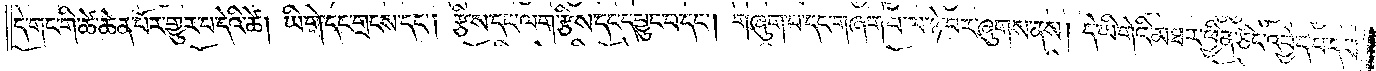དེ་གང་གི་ཚེ་ཆེན་པོར་གྱུར་པ་དེའི་ཚེ། ཡི་གེ་དང་གྲངས་དང༌། རྩིས་དང་ལག་རྩིས་དང་དབྱུང་བ་དང༌། གཞུག་པ་དང་གཞག་པ་ལ་ཉེ་བར་ཞུགས་ནས། དེ་ཡི་གེའི་མཐར་ཕྱིན་ཅིང་འབྱེད་པ་དང༌།
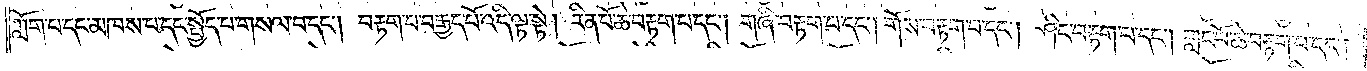ཀློག་པ་དང་མཁས་པ་དང་སྤྱོད་པ་གསལ་བ་དང༌། བརྟག་པ་བརྒྱད་པོ་འདི་ལྟ་སྟེ། རིན་པོ་ཆེ་བརྟག་པ་དང༌། གཞི་བརྟག་པ་དང༌། གོས་བརྟག་པ་དང༌། ཤིང་བརྟག་པ་དང༌། གླང་པོ་ཆེ་བརྟག་པ་དང༌།
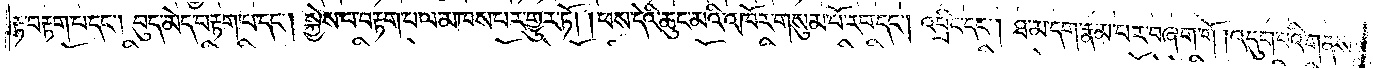རྟ་བརྟག་པ་དང༌། བུད་མེད་བརྟག་པ་དང༌། སྐྱེས་པ་བརྟག་པ་ལ་མཁས་པར་གྱུར་ཏོ། །ཕས་དེའི་ཆུང་མའི་འཁོར་གསུམ་པོ་རབ་དང༌། འབྲིང་དང༌། ཐ་མ་དག་རྣམ་པར་བཞག་གོ །འདུག་པའི་གནས་
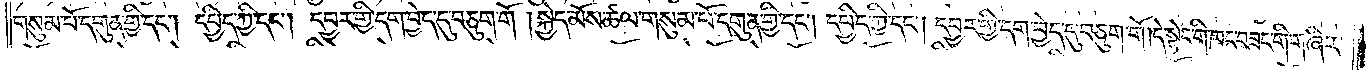གསུམ་པོ་དགུན་གྱི་དང༌། དཔྱིད་ཀྱི་དང༌། དབྱར་གྱི་དག་བྱེད་དུ་བཅུག་གོ །སྐྱེད་མོས་ཚལ་གསུམ་པོ་དགུན་གྱི་དང༌། དཔྱིད་ཀྱི་དང༌། དབྱར་གྱི་དག་བྱེད་དུ་བཅུག་གོ །དེ་སྟེང་གི་ཁང་བཟང་གི་གཞིར་
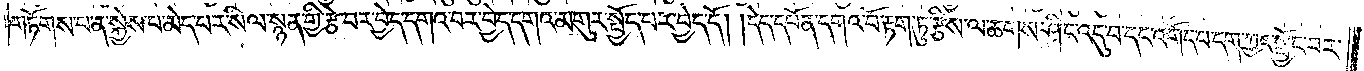གཏོགས་པ་ན་སྐྱེས་པ་མེད་པར་སིལ་སྙན་གྱི་རྩེ་བར་བྱེད་དགའ་བར་བྱེད་དགའ་མགུར་སྤྱོད་པར་བྱེད་དོ། །དེད་དཔོན་དགའ་བོ་རྟག་ཏུ་རྩིས་ལ་ཆགས་ཤིང་འདུ་བ་དང་འགོད་པ་དག་ཀྱང་སྦྱོང་བར་
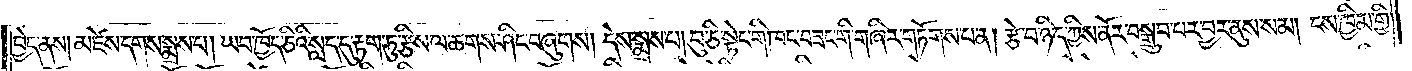བྱེད་ནས། མཛེས་དགས་སྨྲས་པ། ཡབ་ཁྱོད་ཅིའི་སླད་དུ་རྟག་ཏུ་རྩིས་ལ་ཆགས་ཤིང་བཞུགས། དེས་སྨྲས་པ། བུ་ཅི་སྟེང་གི་ཁང་བཟང་གི་གཞིར་གཏོགས་པ་ན། རྩེ་བ་ཉིད་ཀྱིས་ནོར་བསྒྲུབ་པར་བྱར་ནུས་སམ། ངས་ཁྱིམ་གྱི་
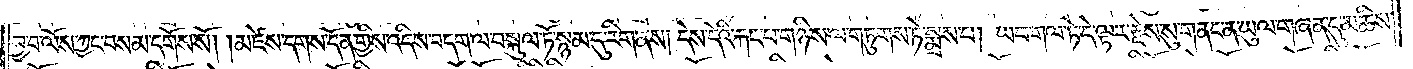བྱ་བ་ལོས་ཀྱང་བསམ་དགོས་སོ། །མཛེས་དགས་དོན་གྱིས་འདིས་བདག་ལ་བསྐུལ་ཏོ་སྙམ་དུ་རིག་ནས། དེས་དེའི་རྐང་པ་གཉིས་ལ་གཏུགས་ཏེ་སྨྲས་པ། ཡབ་གལ་ཏེ་དེ་ལྟར་རྗེས་སུ་གནང་ན་ཡུལ་གཞན་དུ་མཆིས་
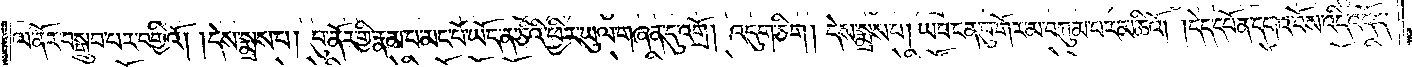ལ་ནོར་བསྒྲུབ་པར་བགྱིའོ། །དེས་སྨྲས་པ། བུ་ནོར་གྱི་རྣམ་པ་མང་པོ་ཡོད་ན་ཅིའི་ཕྱིར་ཡུལ་གཞན་དུ་འགྲོ། འདུག་ཅིག། དེས་སྨྲས་པ། ཡབ་ངན་བུ་གོར་མ་བཀུམ་པར་མཆིའོ། །དེད་དཔོན་དགའ་བོས་འདི་འདོད་
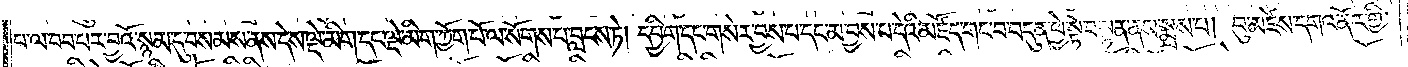པ་ལ་བབ་པར་བྱའོ་སྙམ་དུ་བསམས་ནས་དེས་ལྡེ་མིག་དང་ལྡེ་མིག་ཀྱོག་པོ་ལ་སོགས་པ་བླངས་ཏེ། དབྱིག་དང་གསེར་བྱས་པ་དང་མ་བྱས་པ་དེའི་མཛོད་གང་བ་བདུན་ཕྱེ་སྟེ་བསྟན་ནས་སྨྲས་པ། བུ་མཛེས་དགའ་ནོར་གྱི་
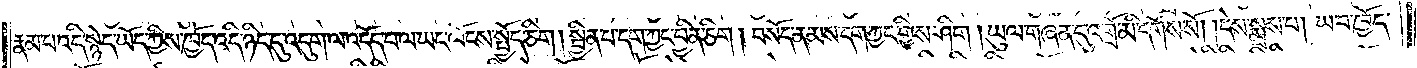རྣམ་པ་འདི་སྙེད་ཡོད་ཀྱིས་ཁྱོད་འདི་ཉིད་དུ་འདུག་ལ་འདོད་པ་ལ་ཡང་ལོངས་སྤྱོད་ཅིག །སྦྱིན་པ་དག་ཀྱང་བྱིན་ཅིག། བསོད་ནམས་དག་ཀྱང་གྱིས་ཤིག། ཡུལ་གཞན་དུ་འགྲོ་མི་དགོས་སོ། །དེས་སྨྲས་པ། ཡབ་ཁྱོད་
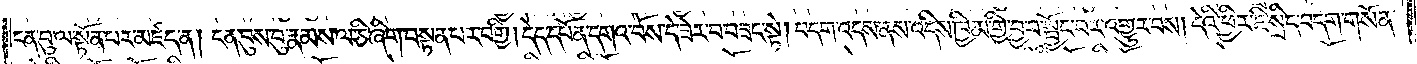ངན་བུ་ལ་སྟོན་པར་མཛད་ན། ངན་བུས་བུ་རྣམས་ལ་ཅི་ཞིག་བསྟན་པར་བགྱི། དེད་དཔོན་དགའ་བོས་དེ་ཟེར་བ་བཟང་སྟེ། བདག་འདས་ནས་འདིས་ཁྱིམ་གྱི་བྱ་བ་སྦྱོང་བར་འགྱུར་བས། དེའི་ཕྱིར་ཇི་སྲིད་བདག་གསོན་
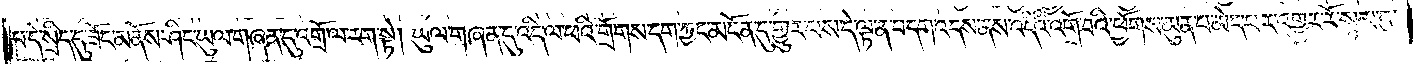པ་དེ་སྲིད་དུ་ཟོང་མནོས་ཤིང་ཡུལ་གཞན་དུ་འགྲོ་ལ་རག་སྟེ། ཡུལ་གཞན་དུ་འདི་ལ་ཕའི་གྲོགས་དག་ཀྱང་མངོན་དུ་གྱུར་པས་དེ་ལྟ་ན་བདག་འདས་ནས་འདིའི་འགོ་བའི་ཕྱོགས་མུན་པ་མེད་པར་འགྱུར་རོ་སྙམ་དུ་
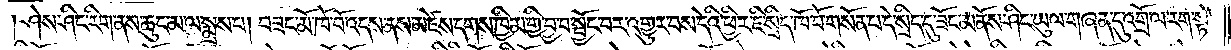ཤེས་ཤིང་རིག་ནས་ཆུང་མ་ལ་སྨྲས་པ། བཟང་མོ་ཁོ་བོ་འདས་ནས་མཛེས་དགས་ཁྱིམ་གྱི་བྱ་བ་སྦྱོང་བར་འགྱུར་བས་དེའི་ཕྱིར་ཇི་སྲིད་ཁོ་བོ་གསོན་པ་དེ་སྲིད་དུ་ཟོང་མནོས་ཤིང་ཡུལ་གཞན་དུ་འགྲོ་ལ་རག་སྟེ་
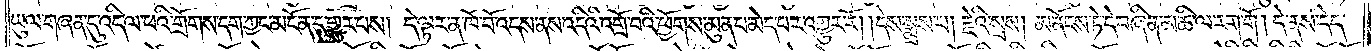ཡུལ་གཞན་དུ་འདི་ལ་ཕའི་གྲོགས་དག་ཀྱང་མངོན་དུ་གྱུར་པས། དེ་ལྟར་ན་ཁོ་བོ་འདས་ནས་འདིའི་འགྲོ་བའི་ཕྱོགས་མུན་པ་མེད་པར་འགྱུར་རོ། །དེས་སྨྲས་པ། རྗེའི་སྲས། མ་ནོངས་ཏེ་དེ་བཞིན་མཆི་ལ་རག་གོ །དེ་ནས་དེད་
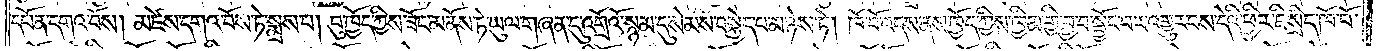དཔོན་དགའ་བོས། མཛེས་དགའ་བོས་ཏེ་སྨྲས་པ། བུ་ཁྱོད་ཀྱིས་ཟོང་མནོས་ཏེ་ཡུལ་གཞན་དུ་འགྲོའོ་སྙམ་དུ་སེམས་བསྐྱེད་པ་མ་ཉེས་ཏེ། ཁོ་བོ་འདས་ནས་ཁྱོད་ཀྱིས་ཁྱིམ་གྱི་བྱ་བ་སྦྱོང་བར་འགྱུར་བས་དེའི་ཕྱིར་ཇི་སྲིད་ཁོ་བོ་
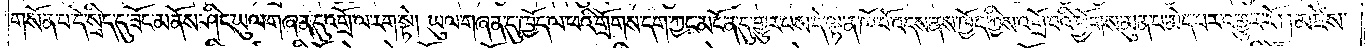གསོན་པ་དེ་སྲིད་དུ་ཟོང་མནོས་ཤིང་ཡུལ་གཞན་དུ་འགྲོ་ལ་རག་སྟེ། ཡུལ་གཞན་དུ་ཁྱོད་ལ་ཕའི་གྲོགས་དག་ཀྱང་མངོན་དུ་གྱུར་པས་དེ་ལྟ་ན་ཁོ་བོ་འདས་ནས་ཁྱོད་ཀྱིས་འགྲོ་བའི་ཕྱོགས་མུན་པ་མེད་པར་འགྱུར་རོ། །མཛེས་
